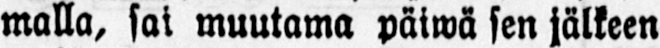malla, sai muutama päiwä sen jälkeen
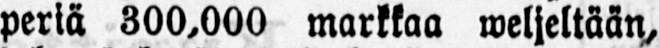periä 300,000 markkaa weljeltään,
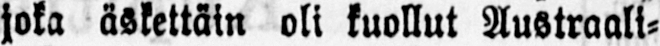joka äskettäin oli kuollut Austraali-
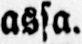assa.
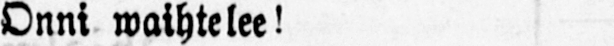Onni waihtelee!
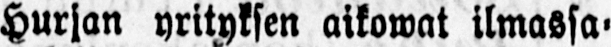Hurjan yrityksen aikowat ilmassa-
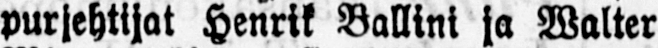purjehtijat Henrik Ballini ja Walter
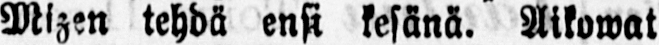Mizen tehdä ensi kesänä. Aikowat
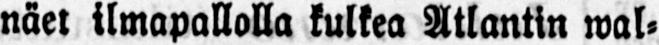näet ilmapallolla kulkea Atlantin wal-
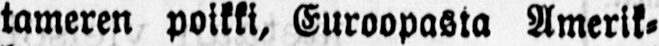tameren poikki, Euroopasta Amerik-
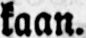kaan.
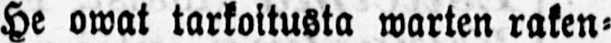He owat tarkoitusta warten raken-
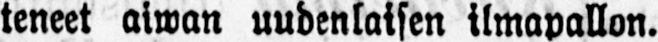teneet aiwan uudenlaisen ilmapallon.
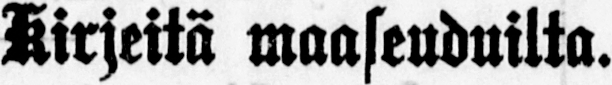Kirjettä maaseuduilta.
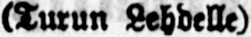(Turun Lehdelle).
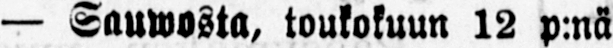— Sauwosta, toukokuun 12 p:nä
